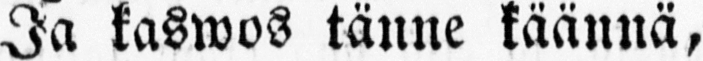Ja kaswos tänne käännä,
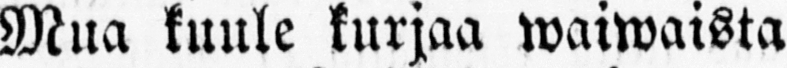Mua kuule kurjaa waiwaista
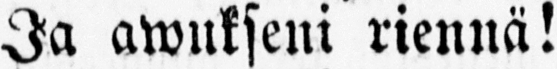Ja awukseni riennä!
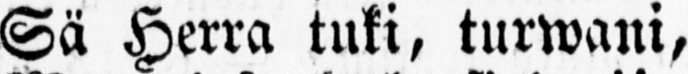Sä Herra tuki, turwani,
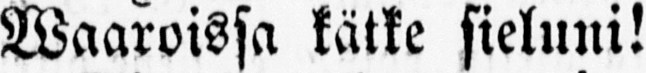Waaroissa kätke sieluni!
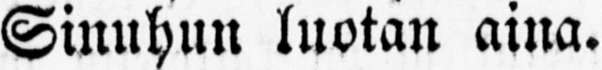Sinuhun luotan aina.
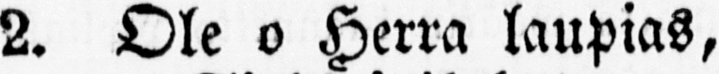2. Ole o Herra laupias,
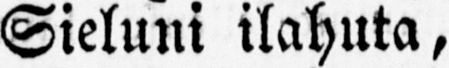Sieluni ilahuta,
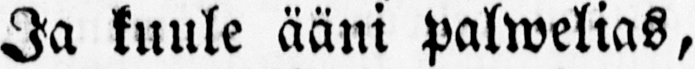Ja kuule ääni palwelias,
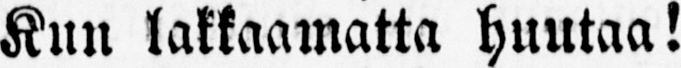Kun lakkaamatta huutaa!
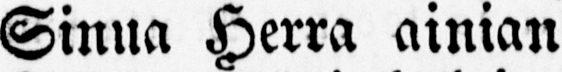Sinua Herra ainian
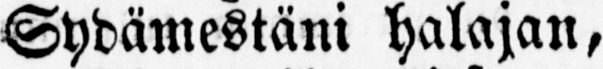Sydämestäni halajan,
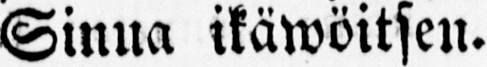Sinua ikäwöitsen.
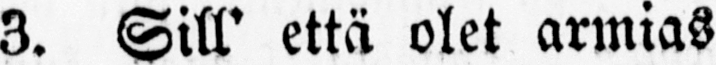3. Sill' että olet armias
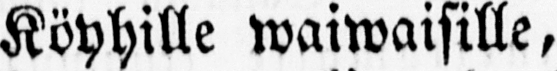Köyhille waiwaisille,
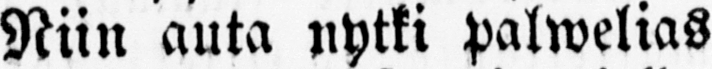Niin auta nytki palwelias
